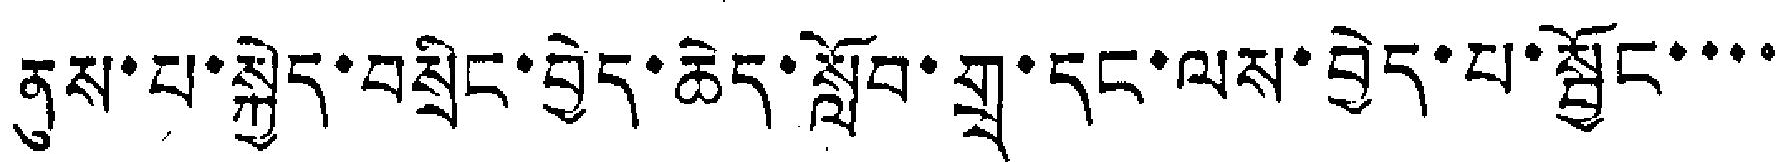ནུས་པ་སྐྱེད་བསྲིང་བྱེད་ཆེད་སློབ་གྲྭ་དང་ལས་བྱེད་པ་སྦྱོང་་་་
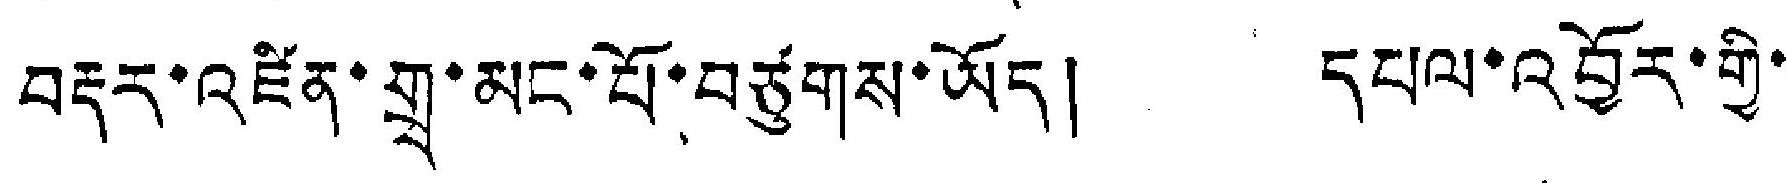བརྡར་འཛིན་གྲྭ་མང་པོ་བཙུགས་ཡོད། དཔལ་འབྱོར་གྱི་
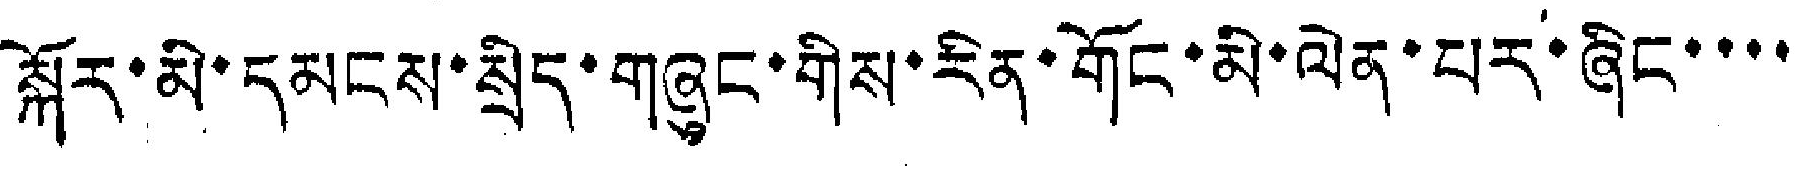སྐོར་མི་དམངས་སྲིད་གཞུང་གིས་རིན་གོང་མི་ལེན་པར་ཞིང་་་་
